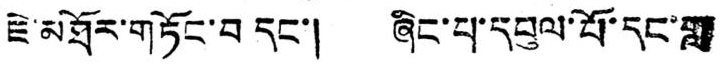ཇེ་མཐོར་གཏོང་བ དང་། ཞིང་པ་དབུལ་པོ་དང་གླ
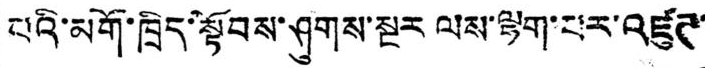པའི་མགོ་ཁྲིད་སྟོབས་ཤུགས་སྔར ལས་ལྷག་པར་འཛུཊ་
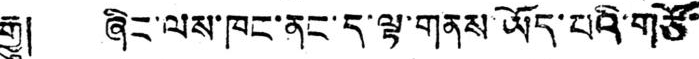རྒྱུ། ཞིང་ལས་ཁང་ནང་ད་ལྟ་གནས ཡོད་པའི་གཙོ་
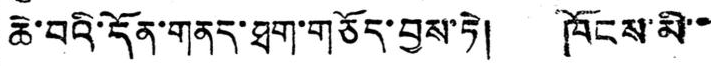ཆེ་བའི་དོན་གནད་ཐག་གཅོད་བྱས་ཏེ། ཁོངས་མི་་
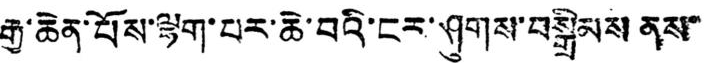རྒྱ་ཆེན་པོས་ལྷག་པར་ཆེ་བའི་ངར་ཤུགས་བསྒྲིམས ནས་
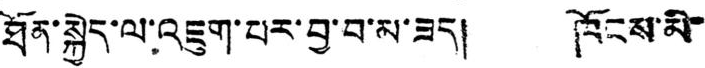ཐོན་སྐྱེད་ལ་འཇུག་པར་བྱ་བ་མ་ཟད། ཁོངས་མི་
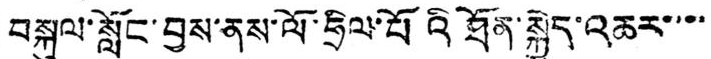བསྐུལ་སློང་བྱས་ནས་ལོ་ཧྲིལ་པོའི ཐོན་སྐྱེད་འཆར་་་་
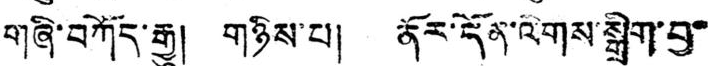གཞི་བཀོད་རྒྱུ། གཉིས་པ། ནོར་དོན་ལེགས་སྒྲིག་བྱ་
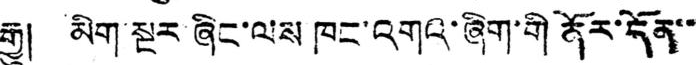རྒྱུ། མིག་སྔར ཞིང་ལས ཁང་འགའ་ཞིག་གི ནོར་དོན་་
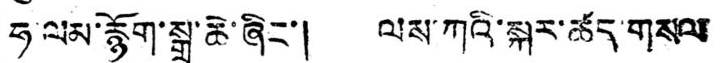ཧ་ལམ་རྙོག་སྒྲ་ཆེ་ཞིང་། ལས་ཀའི་སྐར་ཚད་གསལ
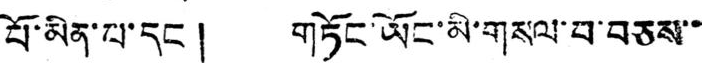པོ་མིན་པ་དང་། གཏོང་ཡོང་མི་གསལ་བ་བཅས་་
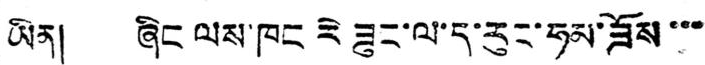ཡིན། ཞིང ལས་ཁང རེ ཟུང་ལ་ད་རུང་ཧམ་ཟོས་་་
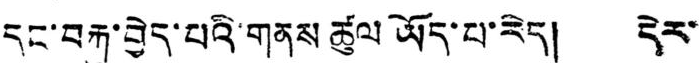དང་བརྐུ་བྱེད་པའི་གནས ཚུལ ཡོད་པ་རེད། དེར་
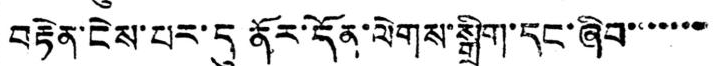བརྟེན་ངེས་པར་དུ ནོར་དོན་ལེགས་སྒྲིག་དང་ཞིབ་་་་་་་
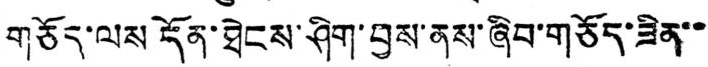གཅོད་ལས དོན་ཐེངས་ཤིག་བྱས་ནས་ཞིབ་གཅོད་ཟིན་་
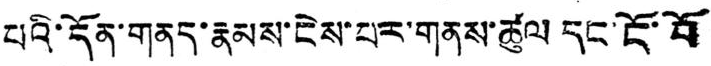པའི་དོན་གནད་རྣམས་ངེས་པར་གནས་ཚུལ དང་ངོ་བོ
